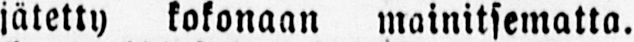jätetty kokonaan mainitsematta.
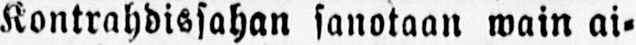Kontrahdissahan sanotaan wain ai-
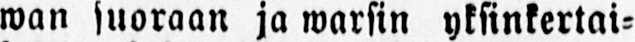wan suoraan ja warsin yksinkertai-
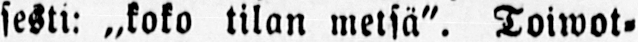sesti: „koko tilan metsä". Toiwot-
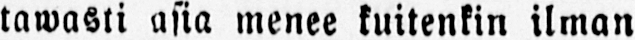tawasti asia menee kuitenkin ilman
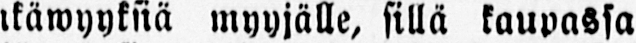ikäwyyksiä myyjälle, sillä kaupassa
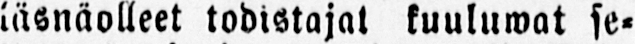läsnäolleet todistajat kuuluwat se-
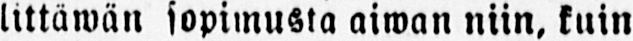littäwän sopimusta aiwan niin, kuin
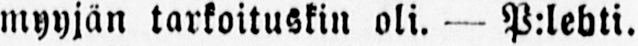myyjän tarkoituskin oli. — P.lehti.
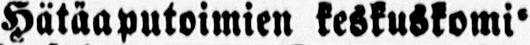Hätäaputoimien keskuskomi-
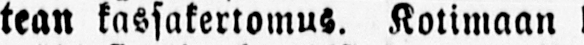tean kassakertomus. Kotimaan hä-
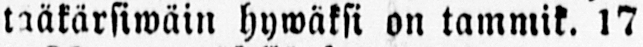tääkärsiwäin hywäksi on tammik. 17
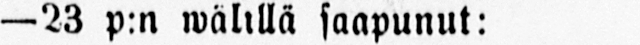—23 p:n wälillä saapunut:
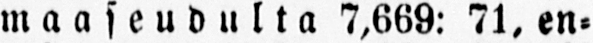maaseudulta 7,669: 71. en-
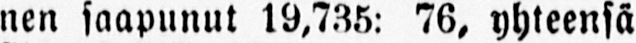nen saapunut 19,735: 76, yhteensä
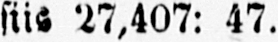siis 27,407: 47.
